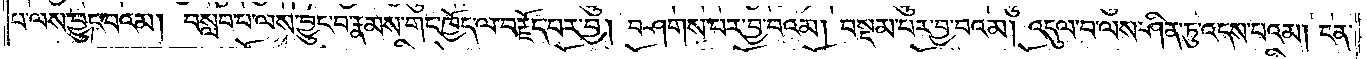པ་ལས་བྱུང་བའམ། བསླབ་པ་ལས་བྱུང་བ་རྣམས་གང་ཁྱོད་ལ་བརྗོད་པར་བྱ། བཤགས་པར་བྱ་བའམ། བསྡམ་པར་བྱ་བའམ། འདུལ་བ་ལས་ཤིན་ཏུ་འདས་པའམ། ངན་
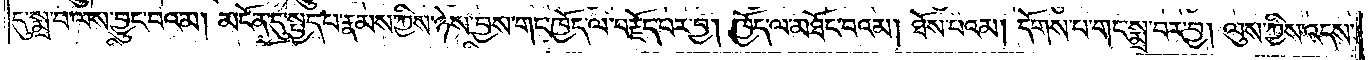དུ་སྨྲ་བ་ལས་བྱུང་བའམ། མངོན་དུ་སྤྱད་པ་རྣམས་ཀྱིས་ཉེས་བྱས་གང་ཁྱོད་ལ་བརྗོད་པར་བྱ། ཁྱོད་ལ་མཐོང་བའམ། ཐོས་པའམ། དོགས་པ་གང་སྨྲ་བར་བྱ། ལུས་ཀྱིས་འདས་
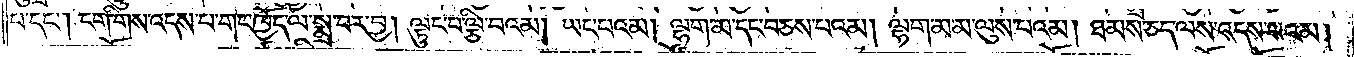པ་དང༌། ངག་གིས་འདས་པ་གང་ཁྱོད་ལ་སྨྲ་བར་བྱ། ལྟུང་བ་ལྕི་བའམ། ཡང་པའམ། ལྷག་མ་དང་བཅས་པའམ། ལྷག་མ་མ་ལུས་པའམ། ཐམས་ཅད་ལས་འདས་པའམ།
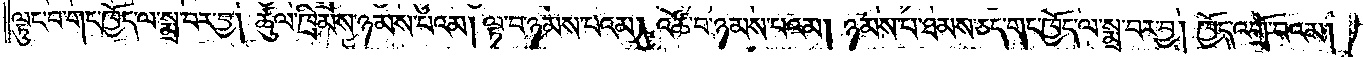ལྟུང་བ་གང་ཁྱོད་ལ་སྨྲ་བར་བྱ། ཚུལ་ཁྲིམས་ཉམས་པའམ། ལྟ་བ་ཉམས་པའམ། འཚོ་བ་ཉམས་པའམ། ཉམས་པ་ཐམས་ཅད་གང་ཁྱོད་ལ་སྨྲ་བར་བྱ། ཁྱོད་འགྲོ་བའམ།
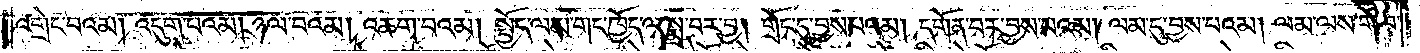འགྲེང་བའམ། འདུག་པའམ། ཉལ་བའམ། འཆག་པའམ། སྤྱོད་ལམ་གང་ཁྱོད་ལ་སྨྲ་བར་བྱ། གྲོང་དུ་བྱས་པའམ། དགོན་པར་བྱས་པའམ། ལམ་དུ་བྱས་པའམ། ལམ་ལས་གོལ་
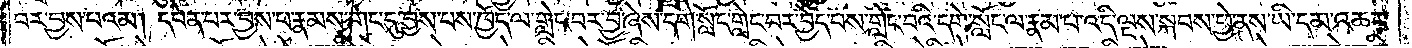བར་བྱས་པའམ། དབེན་པར་བྱས་པ་རྣམས་གང་དུ་བྱས་པས་ཁྱོད་ལ་གླེང་བར་བྱ་ཞེས་དགེ་སློང་གླེང་བར་བྱེད་པས་གླེང་བའི་དགེ་སློང་ལ་རྣམ་པ་འདི་ལྔས་སྐབས་ཕྱེ་ནས་ཡི་དམ་འཆར་
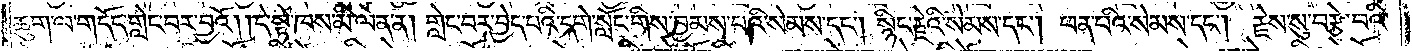ཆུག་ལ་གདོད་གླེང་བར་བྱའོ། །དེ་སྟེ་ཁས་མི་ལེན་ན། གླེང་བར་བྱེད་པའི་དགེ་སློང་གིས་བྱམས་པའི་སེམས་དང༌། སྙིང་རྗེའི་སེམས་དང༌། ཕན་པའི་སེམས་དང༌། རྗེས་སུ་བརྩེ་བའི་
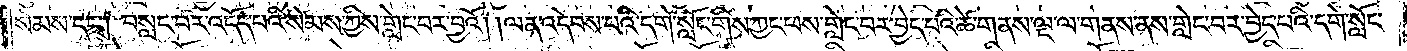སེམས་དང༌། བསླང་བར་འདོད་པའི་སེམས་ཀྱིས་གླེང་བར་བྱའོ། །ལན་འདེབས་པའི་དགེ་སློང་གིས་ཀྱང་ཕས་གླེང་བར་བྱེད་པའི་ཚེ་གནས་ལྔ་ལ་གནས་ནས་གླེང་བར་བྱེད་པའི་དགེ་སློང་
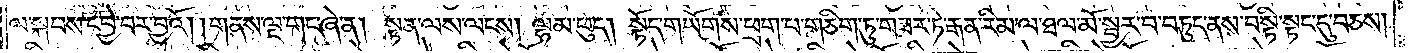ལ་སྐབས་དབྱེ་བར་བྱའོ། །གནས་ལྔ་གང་ཞེ་ན། སྟན་ལས་ལངས། ལྷམ་ཕུད། སྟོད་གཡོགས་ཕྲག་པ་གཅིག་ཏུ་གཟར་ཏེ་རྒན་རིམ་ལ་ཐལ་མོ་སྦྱར་བ་བཏུད་ནས་བསྟི་སྟང་དུ་བཅས།
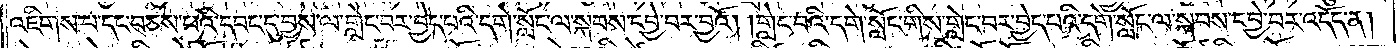འཇིགས་པ་དང་བཅས་པའི་དབང་དུ་བྱས་ལ་གླེང་བར་བྱེད་པའི་དགེ་སློང་ལ་སྐབས་དབྱེ་བར་བྱའོ། །གླེང་བའི་དགེ་སློང་གིས་གླེང་བར་བྱེད་པའི་དགེ་སློང་ལ་སྐབས་དབྱེ་བར་འདོད་ན།
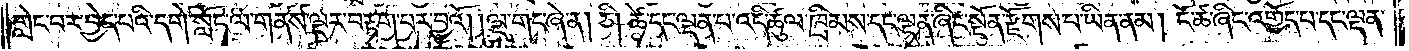གླེང་བར་བྱེད་པའི་དགེ་སློང་ལ་གནས་ལྔར་བརྟག་པར་བྱའོ། །ལྔ་གང་ཞེ་ན། ཅི། ཚེ་དང་ལྡན་པ་འདི་ཚུལ་ཁྲིམས་དང་ལྡན་ཞིང་སྔོན་རྫོགས་པ་ཡིན་ནམ། ངོ་ཚ་ཞིང་འགྱོད་པ་དང་ལྡན་
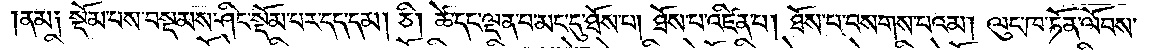ནམ༑ སྡོམ་པས་བསྡམས་ཤིང་སྡོམ་པར་དད་དམ། ཅི། ཚེ་དང་ལྡན་པ་མང་དུ་ཐོས་པ། ཐོས་པ་འཛིན་པ། ཐོས་པ་བསགས་པའམ། ལུང་ཁ་ཏོན་ལོབས་
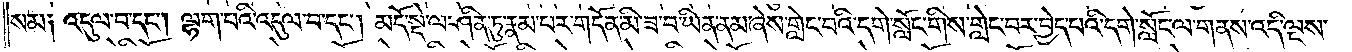སམ༑ འདུལ་བ་དང༌། ལྷག་པའི་འདུལ་བ་དང༌། མདོ་སྡེ་ལ་ཤིན་ཏུ་རྣམ་པར་གདོན་མི་ཟ་བ་ཡིན་ནམ་ཞེས་གླེང་བའི་དགེ་སློང་གིས་གླེང་བར་བྱེད་པའི་དགེ་སློང་ལ་གནས་འདི་ལྔས་
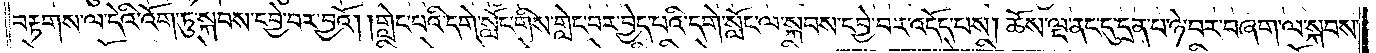བརྟགས་ལ་དེའི་འོག་ཏུ་སྐབས་དབྱེ་བར་བྱའོ། །གླེང་པའི་དགེ་སློང་གིས་གླེང་བར་བྱེད་པའི་དགེ་སློང་ལ་སྐབས་དབྱེ་བར་འདོད་པས། ཆོས་ལྔ་ནང་དུ་དྲན་པ་ཉེ་བར་བཞག་ལ་སྐབས་
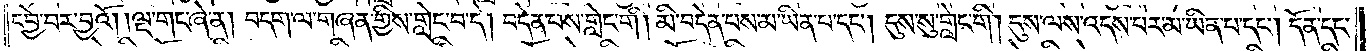དབྱེ་བར་བྱའོ། །ལྔ་གང་ཞེ་ན། བདག་ལ་གཞན་གྱིས་གླེང་བ་དེ། བདེན་པས་གླེང་གི། མི་བདེན་པས་མ་ཡིན་པ་དང༌། དུས་སུ་གླེང་གི། དུས་ལས་འདས་པར་མ་ཡིན་པ་དང༌། དོན་དང་
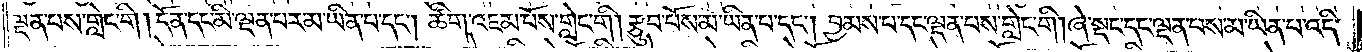ལྡན་པས་གླེང་གི། དོན་དང་མི་ལྡན་པར་མ་ཡིན་པ་དང༌། ཚིག་འཇམ་པོས་གླེང་གི། རྩུབ་པོས་མ་ཡིན་པ་དང༌། བྱམས་པ་དང་ལྡན་པས་གླེང་གི། ཞེ་སྡང་དང་ལྡན་པས་མ་ཡིན་པ་འདི་
